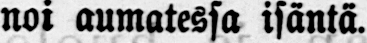noi aumatessa isäntä.
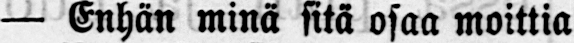— Enhän minä sitä osaa moittia
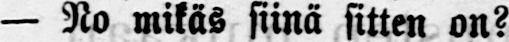— No mikäs siinä sitten on?
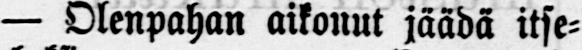— Olenpahan aikonut jäädä itse-
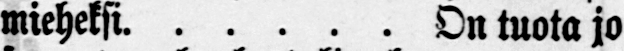mieheksi. . . . . . On tuota jo
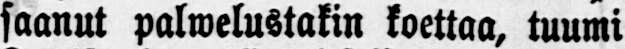saanut palwelustakin koettaa, tuumi
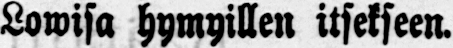Lowisa hymyillen itsekseen.
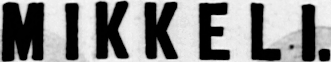MIKKELI
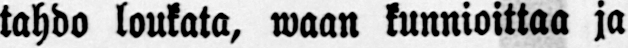tahdo loukata, waan kunnioittaa ja
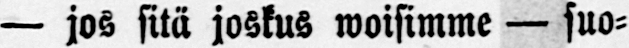— jos sitä joskus woisimme — suo-
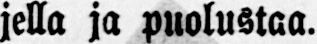jella ja puolustaa.
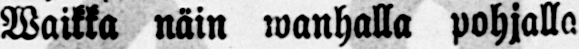Waikka näin wanhalla pohjalla
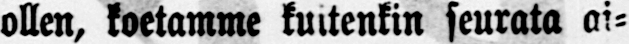ollen, koetamme kuitenkin seurata ai-
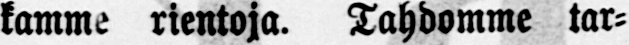kamme rientoja. Tahdomme tar-
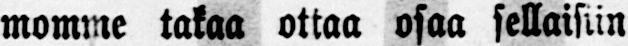momme takaa ottaa osaa sellaisiin
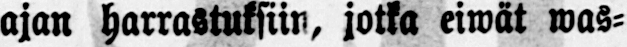ajan harrastuksiin, jotka eiwät was-
